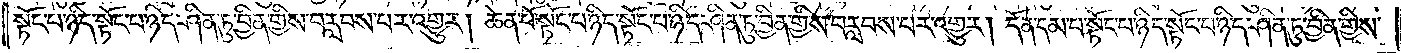སྟོང་པ་ཉིད་སྟོང་པ་ཉིད་ཤིན་ཏུ་བྱིན་གྱིས་བརླབས་པར་འགྱུར། ཆེན་པོ་སྟོང་པ་ཉིད་སྟོང་པ་ཉིད་ཤིན་ཏུ་བྱིན་གྱིས་བརླབས་པར་འགྱུར། དོན་དམ་པ་སྟོང་པ་ཉིད་སྟོང་པ་ཉིད་ཤིན་ཏུ་བྱིན་གྱིས་
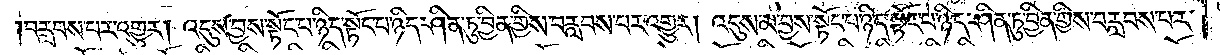བརླབས་པར་འགྱུར། འདུས་བྱས་སྟོང་པ་ཉིད་སྟོང་པ་ཉིད་ཤིན་ཏུ་བྱིན་གྱིས་བརླབས་པར་འགྱུར། འདུས་མ་བྱས་སྟོང་པ་ཉིད་སྟོང་པ་ཉིད་ཤིན་ཏུ་བྱིན་གྱིས་བརླབས་པར་
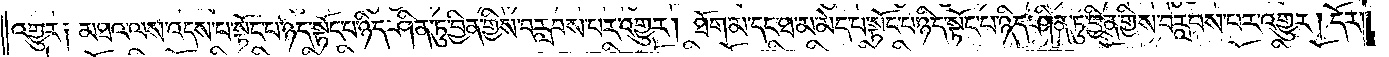འགྱུར། མཐའ་ལས་འདས་པ་སྟོང་པ་ཉིད་སྟོང་པ་ཉིད་ཤིན་ཏུ་བྱིན་གྱིས་བརླབས་པར་འགྱུར། ཐོག་མ་དང་ཐ་མ་མེད་པ་སྟོང་པ་ཉིད་སྟོང་པ་ཉིད་ཤིན་ཏུ་བྱིན་གྱིས་བརླབས་པར་འགྱུར། དོར་
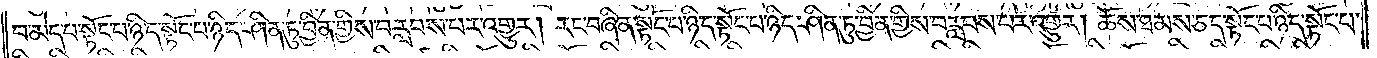བ་མེད་པ་སྟོང་པ་ཉིད་སྟོང་པ་ཉིད་ཤིན་ཏུ་བྱིན་གྱིས་བརླབས་པར་འགྱུར། རང་བཞིན་སྟོང་པ་ཉིད་སྟོང་པ་ཉིད་ཤིན་ཏུ་བྱིན་གྱིས་བརླབས་པར་འགྱུར། ཆོས་ཐམས་ཅད་སྟོང་པ་ཉིད་སྟོང་པ་
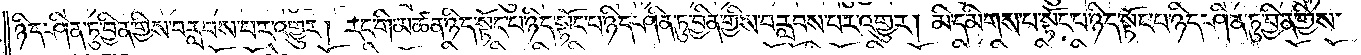ཉིད་ཤིན་ཏུ་བྱིན་གྱིས་བརླབས་པར་འགྱུར། རང་གི་མཚན་ཉིད་སྟོང་པ་ཉིད་སྟོང་པ་ཉིད་ཤིན་ཏུ་བྱིན་གྱིས་བརླབས་པར་འགྱུར། མི་དམིགས་པ་སྟོང་པ་ཉིད་སྟོང་པ་ཉིད་ཤིན་ཏུ་བྱིན་གྱིས་
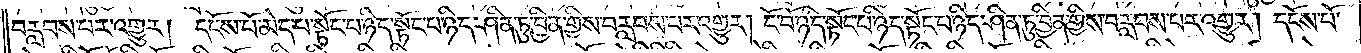བརླབས་པར་འགྱུར། དངོས་པོ་མེད་པ་སྟོང་པ་ཉིད་སྟོང་པ་ཉིད་ཤིན་ཏུ་བྱིན་གྱིས་བརླབས་པར་འགྱུར། ངོ་བོ་ཉིད་སྟོང་པ་ཉིད་སྟོང་པ་ཉིད་ཤིན་ཏུ་བྱིན་གྱིས་བརླབས་པར་འགྱུར། དངོས་པོ་
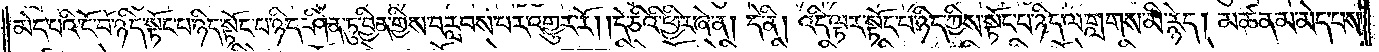མེད་པའི་ངོ་བོ་ཉིད་སྟོང་པ་ཉིད་སྟོང་པ་ཉིད་ཤིན་ཏུ་བྱིན་གྱིས་བརླབས་པར་འགྱུར་རོ། །དེ་ཅིའི་ཕྱིར་ཞེ་ན། དེ་ནི། འདི་ལྟར་སྟོང་པ་ཉིད་ཀྱིས་སྟོང་པ་ཉིད་ལ་གླགས་མི་རྙེད། མཚན་མ་མེད་པས་
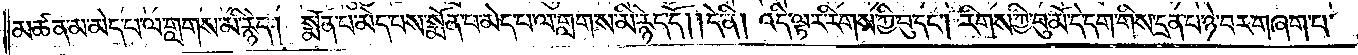མཚན་མ་མེད་པ་ལ་གླགས་མི་རྙེད། སྨོན་པ་མེད་པས་སྨོན་པ་མེད་པ་ལ་གླགས་མི་རྙེད་དོ། །དེ་ནི། འདི་ལྟར་རིགས་ཀྱི་བུ་དང༌། རིགས་ཀྱི་བུ་མོ་དེ་དག་གིས་དྲན་པ་ཉེ་བར་གཞག་པ་
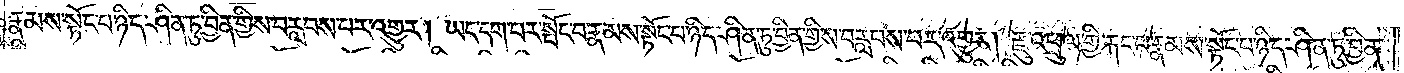རྣམས་སྟོང་པ་ཉིད་ཤིན་ཏུ་བྱིན་གྱིས་བརླབས་པར་འགྱུར། ཡང་དག་པར་སྤོང་བ་རྣམས་སྟོང་པ་ཉིད་ཤིན་ཏུ་བྱིན་གྱིས་བརླབས་པར་འགྱུར། རྫུ་འཕྲུལ་གྱི་རྐང་པ་རྣམས་སྟོང་པ་ཉིད་ཤིན་ཏུ་བྱིན་
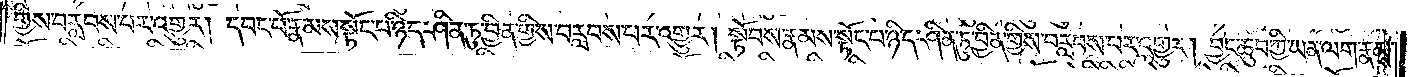གྱིས་བརླབས་པར་འགྱུར། དབང་པོ་རྣམས་སྟོང་པ་ཉིད་ཤིན་ཏུ་བྱིན་གྱིས་བརླབས་པར་འགྱུར། སྟོབས་རྣམས་སྟོང་པ་ཉིད་ཤིན་ཏུ་བྱིན་གྱིས་བརླབས་པར་འགྱུར། བྱང་ཆུབ་ཀྱི་ཡན་ལག་རྣམས་
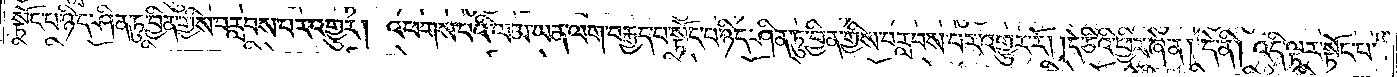སྟོང་པ་ཉིད་ཤིན་ཏུ་བྱིན་གྱིས་བརླབས་པར་འགྱུར། འཕགས་པའི་ལམ་ཡན་ལག་བརྒྱད་པ་སྟོང་པ་ཉིད་ཤིན་ཏུ་བྱིན་གྱིས་བརླབས་པར་འགྱུར་རོ། །དེ་ཅིའི་ཕྱིར་ཞེ་ན། དེ་ནི། འདི་ལྟར་སྟོང་པ་
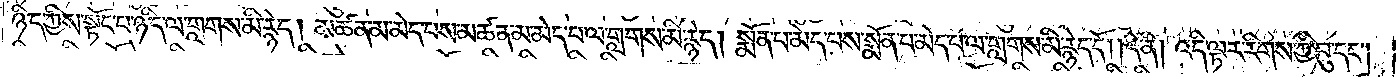ཉིད་ཀྱིས་སྟོང་པ་ཉིད་ལ་གླགས་མི་རྙེད། མཚན་མ་མེད་པས་མཚན་མ་མེད་པ་ལ་གླགས་མི་རྙེད། སྨོན་པ་མེད་པས་སྨོན་པ་མེད་པ་ལ་གླགས་མི་རྙེད་དོ། །དེ་ནི། འདི་ལྟར་རིགས་ཀྱི་བུ་དང༌།
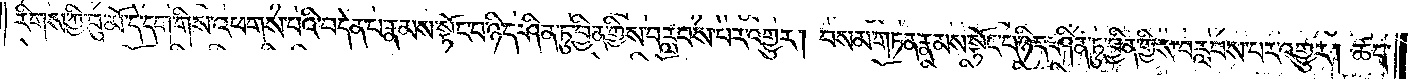རིགས་ཀྱི་བུ་མོ་དེ་དག་གིས་འཕགས་པའི་བདེན་པ་རྣམས་སྟོང་པ་ཉིད་ཤིན་ཏུ་བྱིན་གྱིས་བརླབས་པར་འགྱུར། བསམ་གཏན་རྣམས་སྟོང་པ་ཉིད་ཤིན་ཏུ་བྱིན་གྱིས་བརླབས་པར་འགྱུར། ཚད་
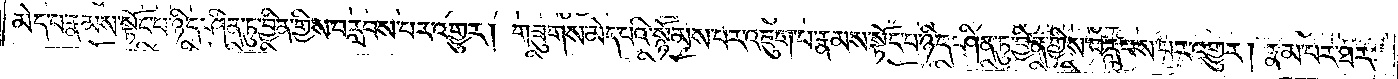མེད་པ་རྣམས་སྟོང་པ་ཉིད་ཤིན་ཏུ་བྱིན་གྱིས་བརླབས་པར་འགྱུར། གཟུགས་མེད་པའི་སྙོམས་པར་འཇུག་པ་རྣམས་སྟོང་པ་ཉིད་ཤིན་ཏུ་བྱིན་གྱིས་བརླབས་པར་འགྱུར། རྣམ་པར་ཐར་
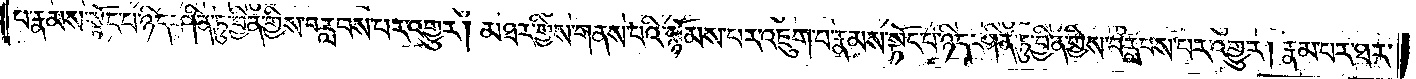པ་རྣམས་སྟོང་པ་ཉིད་ཤིན་ཏུ་བྱིན་གྱིས་བརླབས་པར་འགྱུར། མཐར་གྱིས་གནས་པའི་སྙོམས་པར་འཇུག་པ་རྣམས་སྟོང་པ་ཉིད་ཤིན་ཏུ་བྱིན་གྱིས་བརླབས་པར་འགྱུར། རྣམ་པར་ཐར་
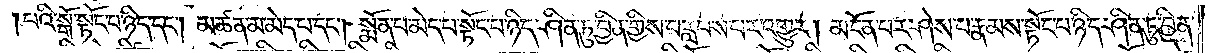པའི་སྒོ་སྟོང་པ་ཉིད་དང༌། མཚན་མ་མེད་པ་དང༌། སྨོན་པ་མེད་པ་སྟོང་པ་ཉིད་ཤིན་ཏུ་བྱིན་གྱིས་བརླབས་པར་འགྱུར། མངོན་པར་ཤེས་པ་རྣམས་སྟོང་པ་ཉིད་ཤིན་ཏུ་བྱིན་
